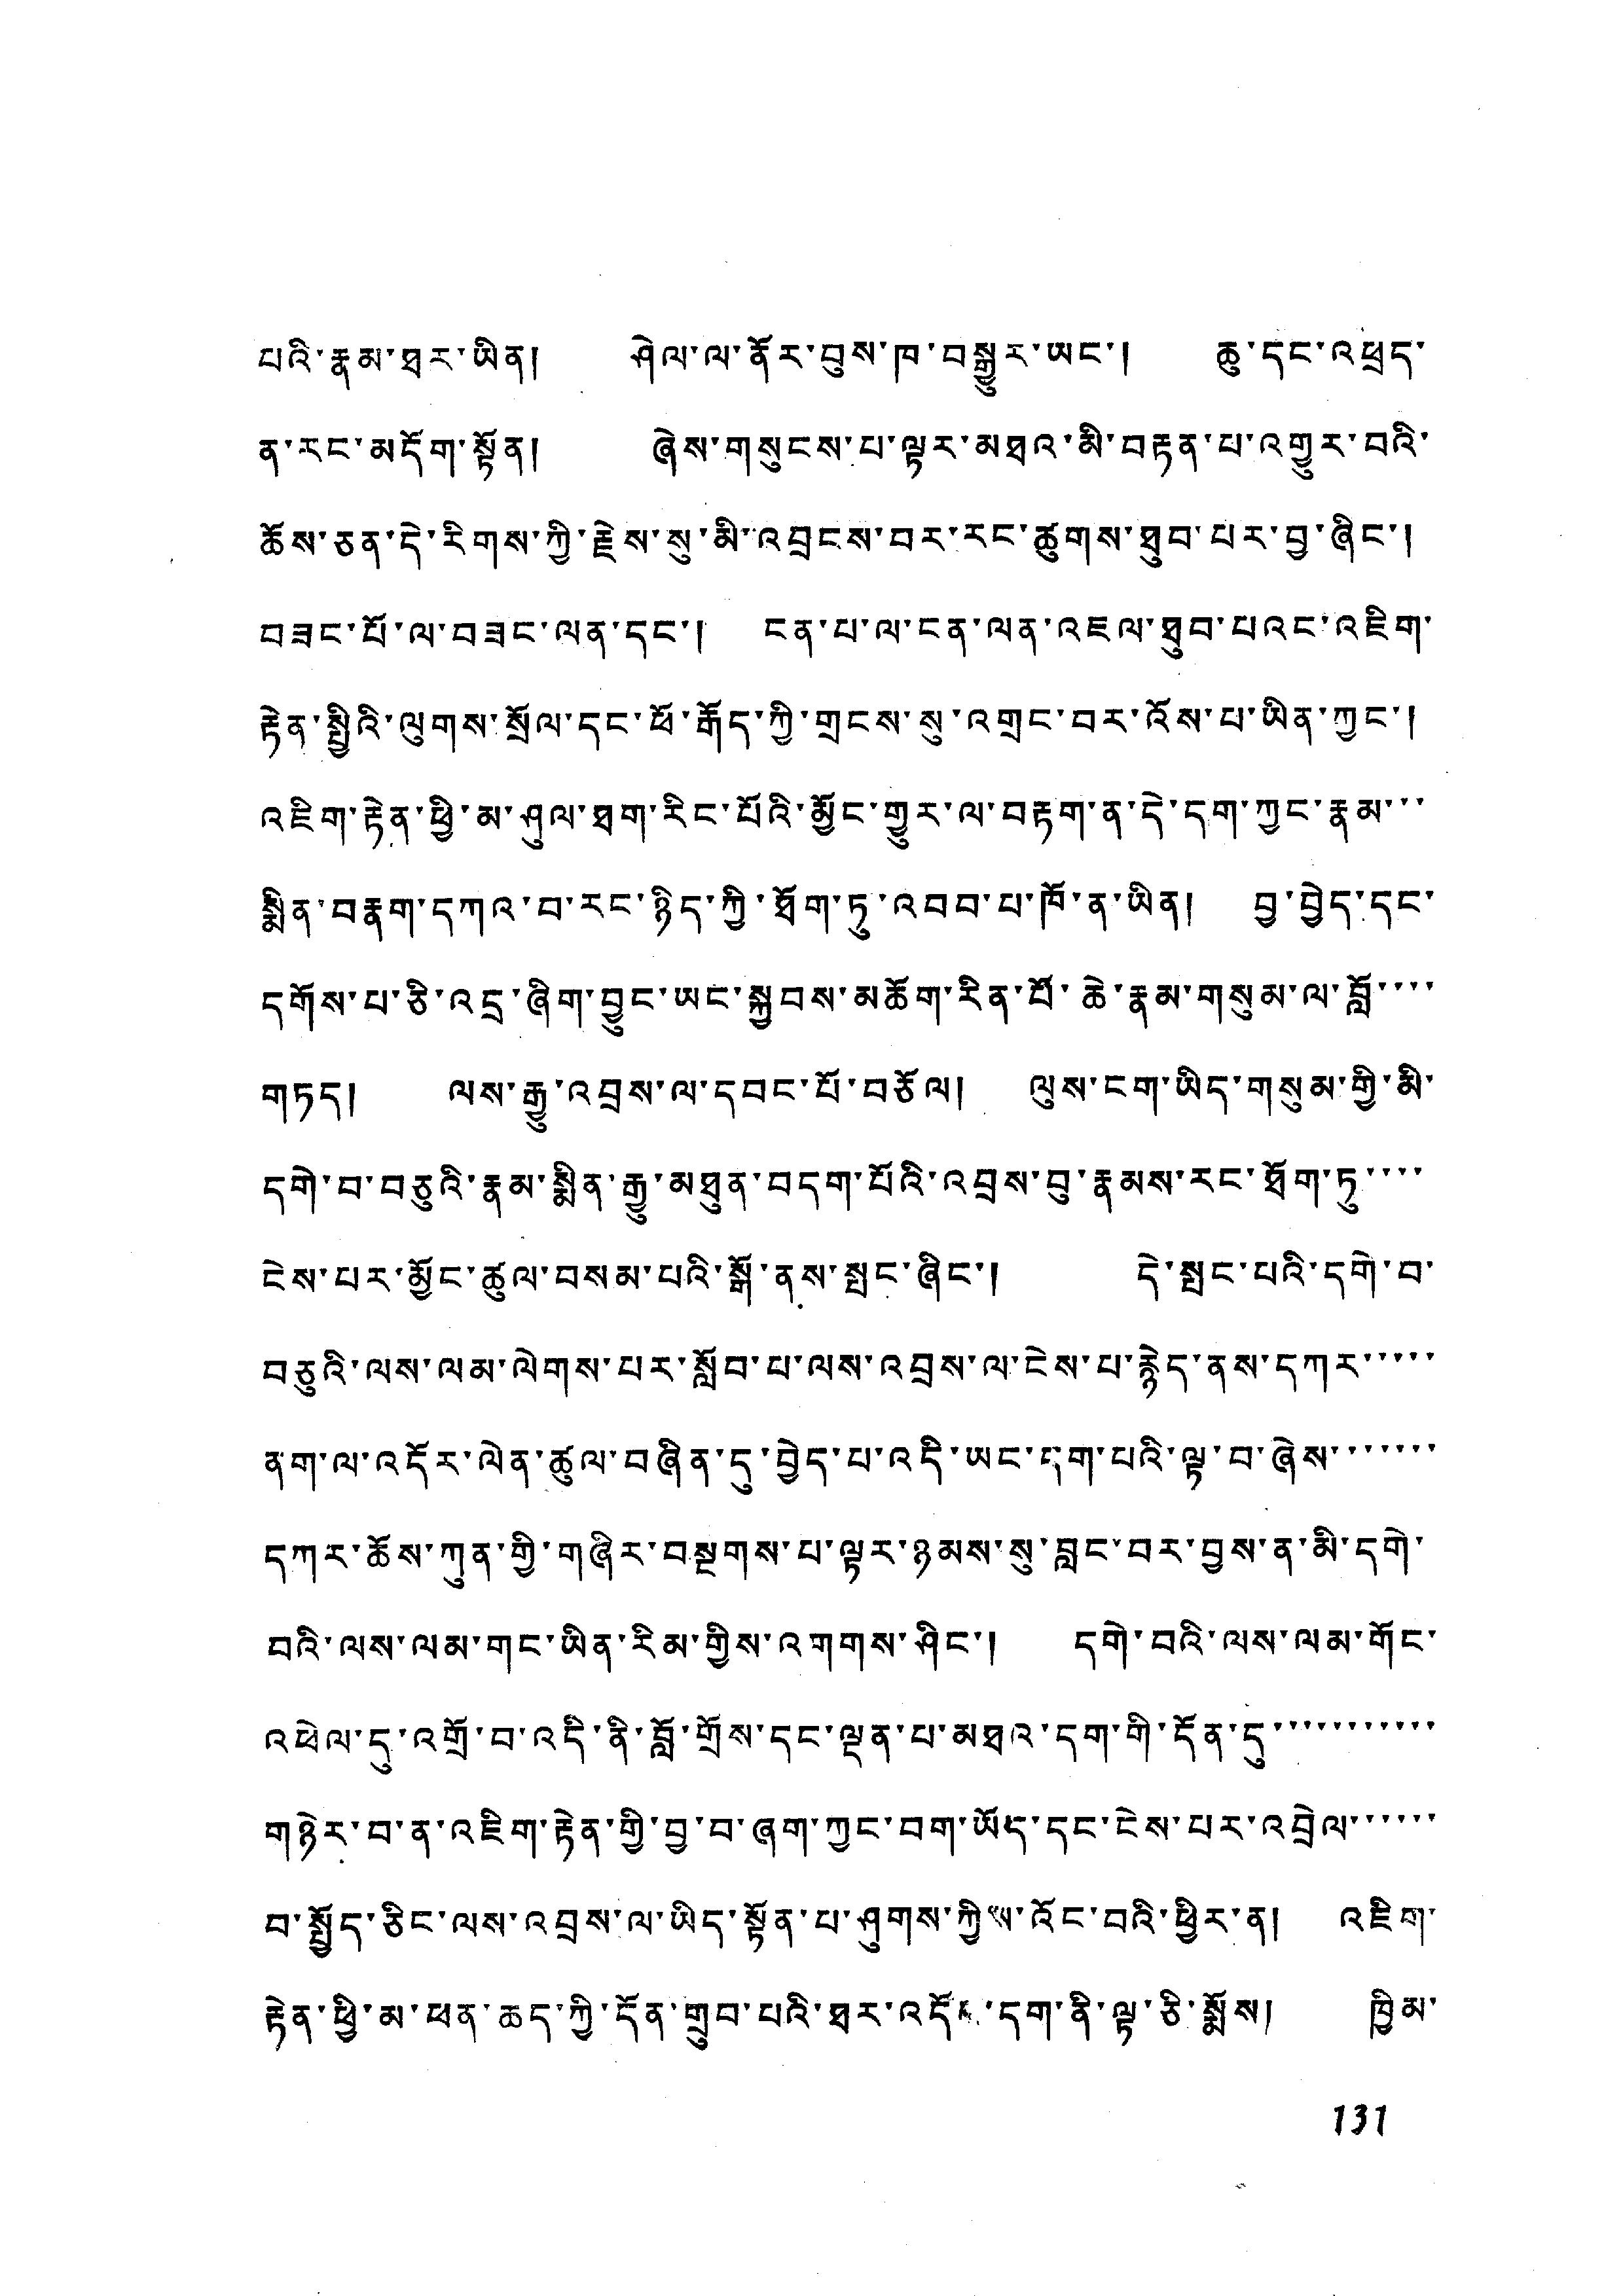པའི་རྣམ་ཐར་ཡིན། ཤེལ་ལ་ནོར་བུས་ཁ་བསྒྱུར་ཡང་། ཆུ་དང་འཕྲད་
ན་རང་མདོག་སྟོན། ཞེས་གསུངས་པ་ལྟར་མཐའ་མི་བརྟན་པ་འགྱུར་བའི་
ཆོས་ཅན་དེ་རིགས་ཀྱི་རྗེས་སུ་མི་འབྲངས་བར་རང་ཚུགས་ཐུབ་པར་བྱ་ཞིང་།
བཟང་པོ་ལ་བཟང་ལན་དང་། ངན་པ་ལ་ངན་ལན་འཇལ་ཐུབ་པའང་འཇིག་
རྟེན་སྤྲིའི་ལུགས་སྲོལ་དང་ཕོ་རྒོད་ཀྱི་གྲངས་སུ་འགྲང་བར་འོས་པ་ཡིན་ཀྱང་།
འཇིག་རྟེན་ཕྱི་མ་ཤུལ་ཐག་རིང་པོའི་མྱོང་གྱུར་ལ་བརྟག་ན་དེ་དག་ཀྱང་རྣམ་་་
སྨིན་བརྣག་དཀའ་བ་རང་ཉིད་ཀྱི་ཐོག་ཏུ་འབབ་པ་ཁོ་ན་ཡིན། བྱ་བྱེད་དུ་
དགོས་པ་ཅི་འདྲ་ཞིག་བྱུང་ཡང་སྐྱབས་མཆོག་རིན་པོ་ཆེ་རྣམ་གསུམ་ལ་བློ་་་་
གཏད། ལས་རྒྱུ་འབྲས་ལ་དབང་པོ་བཅོལ། ལུས་ངག་ཡིད་གསུམ་གྱི་མི་
དགེ་བ་བཅུའི་རྣམ་སྨིན་རྒྱུ་མཐུན་བདག་པོའི་འབྲས་བུ་རྣམས་རང་ཐོག་ཏུ་་་་
ངེས་པར་མྱོང་ཚུལ་བསམ་པའི་སྒོ་ནས་སྤང་ཞིང་། དེ་སྤང་པའི་དགེ་བ་
བཅུའི་ལས་ལམ་ལེགས་པར་སློབ་པ་ལས་འབྲས་ལ་ངེས་པ་རྙེད་ནས་དཀར་་་་་
ནག་ལ་འདོར་ལེན་ཚུལ་བཞིན་དུ་བྱེད་པ་འདི་ཡང་དག་པའི་ལྷ་བ་ཞེས་་་་་་་
དཀར་ཆོས་ཀུན་གྱི་གཞིར་བསྔགས་པ་ལྟར་ཉམས་སུ་བླང་བར་བྱས་ན་མི་དགེ་
བའི་ལས་ལམ་གང་ཡིན་རིམ་གྱིས་འགགས་ཤིང་། དགེ་བའི་ལས་ལམ་གོང་
འཕེལ་དུ་འགྲོ་བ་འདི་ནི་བློ་གྲོས་དང་ལྡན་པ་མཐའ་དག་གི་དོན་དུ་་་་་་་་་་་
གཉེར་བ་ན་འཇིག་རྟེན་གྱི་བྱ་བ་ཞག་ཀྱང་བག་ཡོད་དང་ངེས་པར་འབྲེལ་་་་་་
བ་སྤྱོད་ཅིང་ལས་འབྲས་ལ་ཡིད་སྟོན་པ་ཤུགས་ཀྱིས་འོང་བའི་ཕྱིར་ན། འཇིག་
རྟེན་ཕྱི་མ་ཕན་ཆད་ཀྱི་དོན་གྲུབ་པའི་ཐར་འདོས་དག་ནི་ལྟ་ཅི་སྨོས། ཁྱིམ་
131
